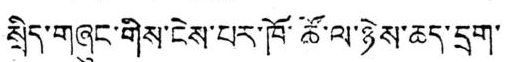སྲིད་གཞུང་གིས་ངེས་པར་ཁོ་ཚོ་ལ་ཉེས་ཆད་དྲག་
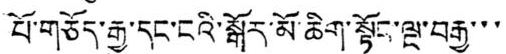པོ་གཅོད་རྒྱུ་དང་ངའི་སྒོར་མོ་ཆིག་སྟོང་ལྔ་བརྒྱ་་་
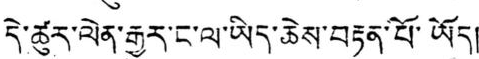དེ་ཚུར་ལེན་རྒྱུར་ང་ལ་ཡིད་ཆེས་བརྟན་པོ་ཡོད།
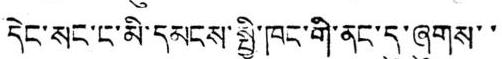དེང་སང་ང་མི་དམངས་སྤྱི་ཁང་གི་ནང་དུ་ཞུགས་་
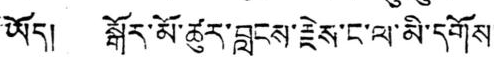ཡོད། སྒོར་མོ་ཚུར་བླངས་རྗེས་ང་ལ་མི་དགོས།
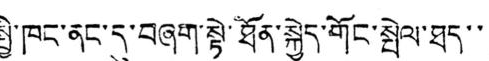སྤྱི་ཁང་ནང་དུ་བཞག་སྟེ་ཐོན་སྐྱེད་གོང་སྤེལ་ཐད་་
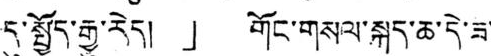དུ་སྤྱོད་རྒྱུ་རེད། 」 གོང་གསལ་སྐད་ཆ་དེ་ཟ་
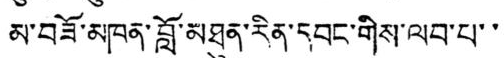མ་བཟོ་མཁན་བློ་མཐུན་རིན་དབང་གིས་ལབ་པ་་
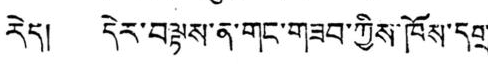རེད། དེར་བལྟས་ན་གང་གཟབ་ཀྱིས་ཁོས་དགྲ་
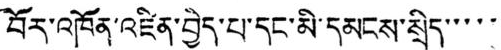བོར་འཁོན་འཛིན་བྱེད་པ་དང་མི་དམངས་སྲིད་་་་་
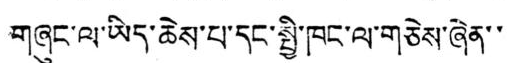གཞུང་ལ་ཡིད་ཆེས་པ་དང་སྤྱི་ཁང་ལ་གཅེས་ཞེན་་
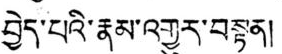བྱེད་པའི་རྣམ་འགྱུར་བསྟན།
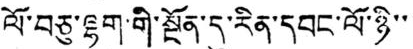ལོ་བཅུ་ལྷག་གི་སྔོན་དུ་རིན་དབང་ལོ་ཉི་་་
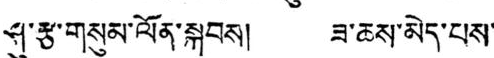ཤུ་རྩ་གསུམ་ལོན་སྐབས། ཟ་ཆས་མེད་པས་
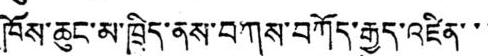ཁོས་ཆུང་མ་ཁྲིད་ནས་བཀས་བཀོད་རྒྱུད་འཛིན་་་
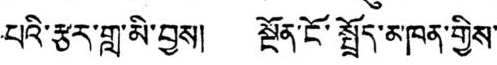པའི་རྩར་གླ་མི་བྱས། སྔོན་ངོ་སྤྲོད་མཁན་གྱིས་
